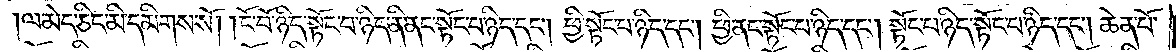ལ་མེད་ཅིང་མི་དམིགས་སོ། །ངོ་བོ་ཉིད་སྟོང་པ་ཉིད་ནི་ནང་སྟོང་པ་ཉིད་དང༌། ཕྱི་སྟོང་པ་ཉིད་དང༌། ཕྱི་ནང་སྟོང་པ་ཉིད་དང༌། སྟོང་པ་ཉིད་སྟོང་པ་ཉིད་དང༌། ཆེན་པོ་
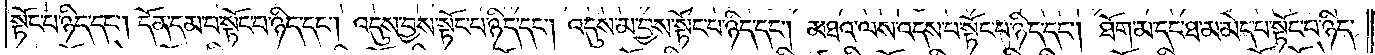སྟོང་པ་ཉིད་དང༌། དོན་དམ་པ་སྟོང་པ་ཉིད་དང༌། འདུས་བྱས་སྟོང་པ་ཉིད་དང༌། འདུས་མ་བྱས་སྟོང་པ་ཉིད་དང༌། མཐའ་ལས་འདས་པ་སྟོང་པ་ཉིད་དང༌། ཐོག་མ་དང་ཐ་མ་མེད་པ་སྟོང་པ་ཉིད་
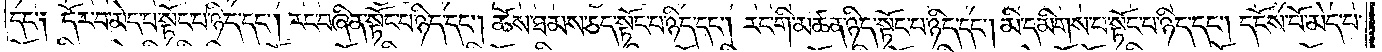དང༌། དོར་བ་མེད་པ་སྟང་པ་ཉིད་དང༌། རང་བཞིན་སྟོང་པ་ཉིད་དང༌། ཆོས་ཐམས་ཅད་སྟོང་པ་ཉིད་དང༌། རང་གི་མཚན་ཉིད་སྟོང་པ་ཉིད་དང༌། མི་དམིགས་པ་སྟོང་པ་ཉིད་དང༌། དངོས་པོ་མེད་པ་
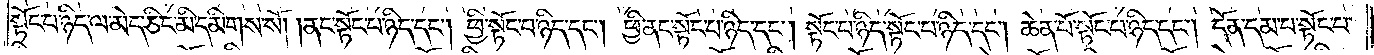སྟོང་པ་ཉིད་ལ་མེད་ཅིང་མི་དམིགས་སོ། །ནང་སྟོང་པ་ཉིད་དང༌། ཕྱི་སྟོང་པ་ཉིད་དང༌། ཕྱི་ནང་སྟོང་པ་ཉིད་དང༌། སྟོང་པ་ཉིད་སྟོང་པ་ཉིད་དང༌། ཆེན་པོ་སྟོང་པ་ཉིད་དང༌། དོན་དམ་པ་སྟོང་པ་
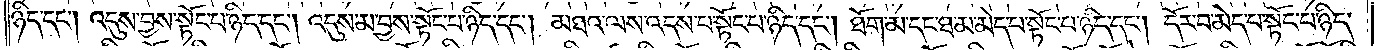ཉིད་དང༌། འདུས་བྱས་སྟོང་པ་ཉིད་དང༌། འདུས་མ་བྱས་སྟོང་པ་ཉིད་དང༌། མཐའ་ལས་འདས་པ་སྟོང་པ་ཉིད་དང༌། ཐོག་མ་དང་ཐ་མ་མེད་པ་སྟོང་པ་ཉིད་དང༌། དོར་བ་མེད་པ་སྟོང་པ་ཉིད་
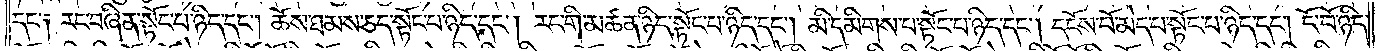དང༌། རང་བཞིན་སྟོང་པ་ཉིད་དང༌། ཆོས་ཐམས་ཅད་སྟོང་པ་ཉིད་དང༌། རང་གི་མཚན་ཉིད་སྟོང་པ་ཉིད་དང༌། མི་དམིགས་པ་སྟོང་པ་ཉིད་དང༌། དངོས་པོ་མེད་པ་སྟོང་པ་ཉིད་དང༌། ངོ་བོ་ཉིད་
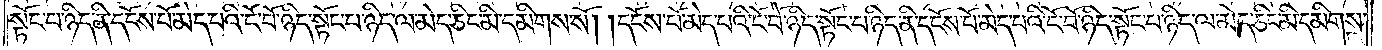སྟོང་པ་ཉིད་ནི་དངོས་པོ་མེད་པའི་ངོ་བོ་ཉིད་སྟོང་པ་ཉིད་ལ་མེད་ཅིང་མི་དམིགས་སོ། །དངོས་པོ་མེད་པའི་ངོ་བོ་ཉིད་སྟོང་པ་ཉིད་ནི་དངོས་པོ་མེད་པའི་ངོ་བོ་ཉིད་སྟོང་པ་ཉིད་ལ་མེད་ཅིང་མི་དམིགས་
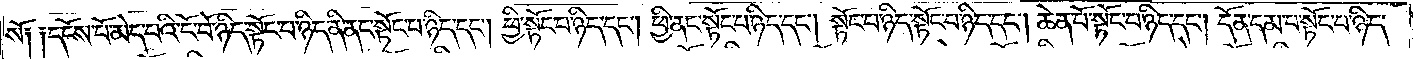སོ༑ ༑དངོས་པོ་མེད་པའི་ངོ་བོ་ཉིད་སྟོང་པ་ཉིད་ནི་ནང་སྟོང་པ་ཉིད་དང༌། ཕྱི་སྟོང་པ་ཉིད་དང༌། ཕྱི་ནང་སྟོང་པ་ཉིད་དང༌། སྟོང་པ་ཉིད་སྟོང་པ་ཉིད་དང༌། ཆེན་པོ་སྟོང་པ་ཉིད་དང༌། དོན་དམ་པ་སྟོང་པ་ཉིད་
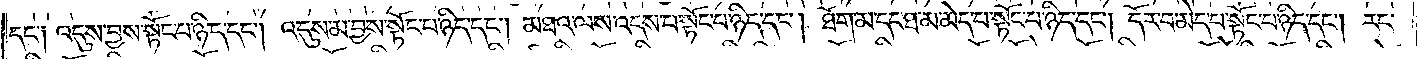དང༌། འདུས་བྱས་སྟོང་པ་ཉིད་དང༌། འདུས་མ་བྱས་སྟོང་པ་ཉིད་དང༌། མཐའ་ལས་འདས་པ་སྟོང་པ་ཉིད་དང༌། ཐོག་མ་དང་ཐ་མ་མེད་པ་སྟོང་པ་ཉིད་དང༌། དོར་བ་མེད་པ་སྟོང་པ་ཉིད་དང༌། རང་
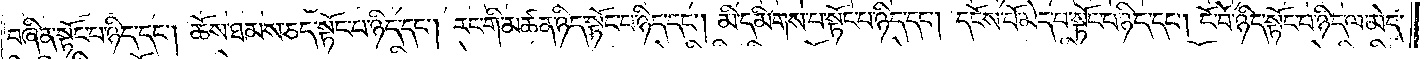བཞིན་སྟོང་པ་ཉིད་དང༌། ཆོས་ཐམས་ཅད་སྟོང་པ་ཉིད་དང༌། རང་གི་མཚན་ཉིད་སྟོང་པ་ཉིད་དང༌། མི་དམིགས་པ་སྟོང་པ་ཉིད་དང༌། དངོས་པོ་མེད་པ་སྟོང་པ་ཉིད་དང༌། ངོ་བོ་ཉིད་སྟོང་པ་ཉིད་ལ་མེད་
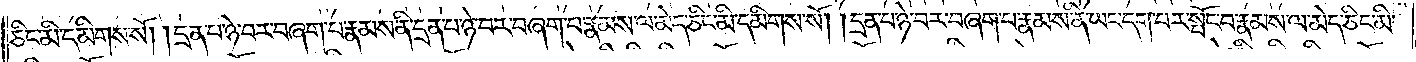ཅིང་མི་དམིགས་སོ། །དྲན་པ་ཉེ་བར་བཞག་པ་རྣམས་ནི་དྲན་པ་ཉེ་བར་བཞག་པ་རྣམས་ལ་མེད་ཅིང་མི་དམིགས་སོ། །དྲན་པ་ཉེ་བར་བཞག་པ་རྣམས་ནི་ཡང་དག་པར་སྤོང་བ་རྣམས་ལ་མེད་ཅིང་མི་
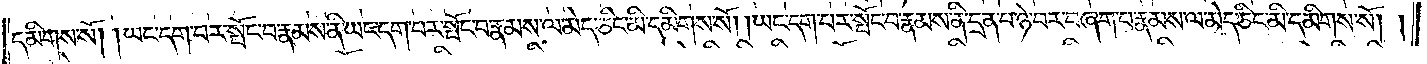དམིགས་སོ། །ཡང་དག་པར་སྤོང་བ་རྣམས་ནི་ཡང་དག་པར་སྤོང་བ་རྣམས་ལ་མེད་ཅིང་མི་དམིགས་སོ། །ཡང་དག་པར་སྤོང་བ་རྣམས་ནི་དྲན་པ་ཉེ་བར་བཞག་པ་རྣམས་ལ་མེད་ཅིང་མི་དམིགས་སོ། །
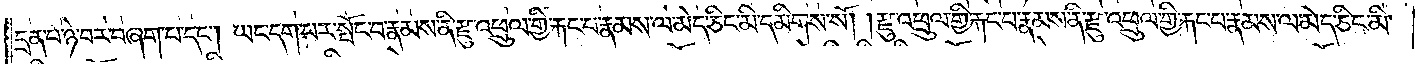དྲན་པ་ཉེ་བར་བཞག་པ་དང༌། ཡང་དག་པར་སྤོང་བ་རྣམས་ནི་རྫུ་འཕྲུལ་གྱི་རྐང་པ་རྣམས་ལ་མེད་ཅིང་མི་དམིགས་སོ། །རྫུ་འཕྲུལ་གྱི་རྐང་པ་རྣམས་ནི་རྫུ་འཕྲུལ་གྱི་རྐང་པ་རྣམས་ལ་མེད་ཅིང་མི་
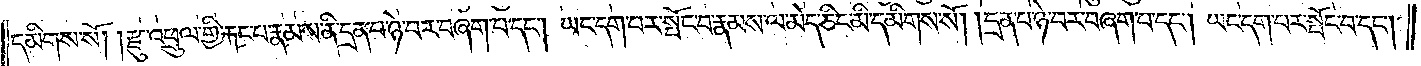དམིགས་སོ། །རྫུ་འཕྲུལ་གྱི་རྐང་པ་རྣམས་ནི་དྲན་པ་ཉེ་བར་བཞག་པ་དང༌། ཡང་དག་པར་སྤོང་བ་རྣམས་ལ་མེད་ཅིང་མི་དམིགས་སོ། །དྲན་པ་ཉེ་བར་བཞག་པ་དང༌། ཡང་དག་པར་སྤོང་བ་དང༌།
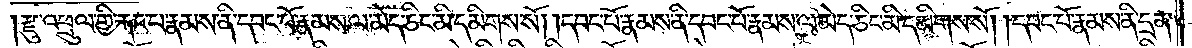རྫུ་འཕྲུལ་གྱི་རྐང་པ་རྣམས་ནི་དབང་པོ་རྣམས་ལ་མེད་ཅིང་མི་དམིགས་སོ། །དབང་པོ་རྣམས་ནི་དབང་པོ་རྣམས་ལ་མེད་ཅིང་མི་དམིགས་སོ། །དབང་པོ་རྣམས་ནི་དྲན་
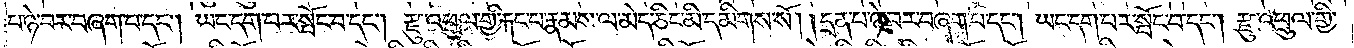པ་ཉེ་བར་བཞག་པ་དང༌། ཡང་དག་པར་སྤོང་བ་དང༌། རྫུ་འཕྲུལ་གྱི་རྐང་པ་རྣམས་ལ་མེད་ཅིང་མི་དམིགས་སོ། །དྲན་པ་ཉེ་བར་བཞག་པ་དང༌། ཡང་དག་པར་སྤོང་བ་དང༌། རྫུ་འཕྲུལ་གྱི་
